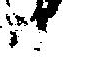3
